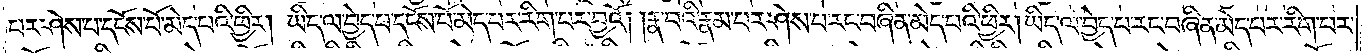པར་ཤེས་པ་དངོས་པོ་མེད་པའི་ཕྱིར། ཡིད་ལ་བྱེད་པ་དངོས་པོ་མེད་པར་རིག་པར་བྱའོ། །རྣ་བའི་རྣམ་པར་ཤེས་པ་རང་བཞིན་མེད་པའི་ཕྱིར། ཡིད་ལ་བྱེད་པ་རང་བཞིན་མེད་པར་རིག་པར་
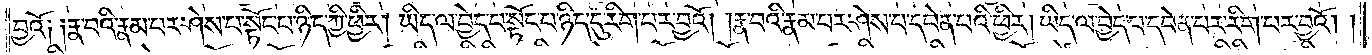བྱའོ༏ ༏རྣ་བའི་རྣམ་པར་ཤེས་པ་སྟོང་པ་ཉིད་ཀྱི་ཕྱིར། ཡིད་ལ་བྱེད་པ་སྟོང་པ་ཉིད་དུ་རིག་པར་བྱའོ། །རྣ་བའི་རྣམ་པར་ཤེས་པ་དབེན་པའི་ཕྱིར། ཡིད་ལ་བྱེད་པ་དབེན་པར་རིག་པར་བྱའོ། །
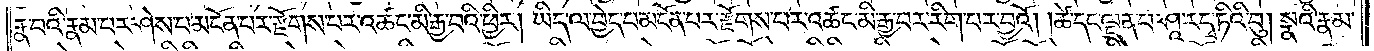རྣ་བའི་རྣམ་པར་ཤེས་པ་མངོན་པར་རྫོགས་པར་འཚང་མི་རྒྱ་བའི་ཕྱིར། ཡིད་ལ་བྱེད་པ་མངོན་པར་རྫོགས་པར་འཚང་མི་རྒྱ་བར་རིག་པར་བྱའོ། །ཚེ་དང་ལྡན་པ་ཤཱ་ར་དྭ་ཏིའི་བུ། སྣའི་རྣམ་
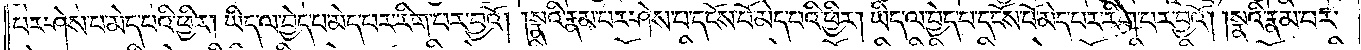པར་ཤེས་པ་མེད་པའི་ཕྱིར། ཡིད་ལ་བྱེད་པ་མེད་པར་རིག་པར་བྱའོ། །སྣའི་རྣམ་པར་ཤེས་པ་དངོས་པོ་མེད་པའི་ཕྱིར། ཡིད་ལ་བྱེད་པ་དངོས་པོ་མེད་པར་རིག་པར་བྱའོ། །སྣའི་རྣམ་པར་
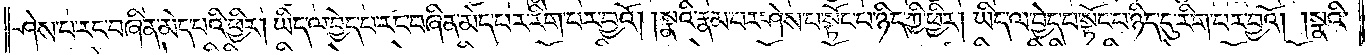ཤེས་པ་རང་བཞིན་མེད་པའི་ཕྱིར། ཡིད་ལ་བྱེད་པ་རང་བཞིན་མེད་པར་རིག་པར་བྱའོ། །སྣའི་རྣམ་པར་ཤེས་པ་སྟོང་པ་ཉིད་ཀྱི་ཕྱིར། ཡིད་ལ་བྱེད་པ་སྟོང་པ་ཉིད་དུ་རིག་པར་བྱའོ། །སྣའི་
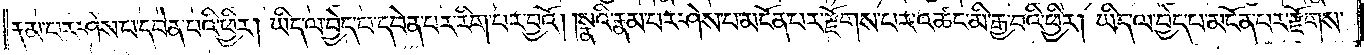རྣམ་པར་ཤེས་པ་དབེན་པའི་ཕྱིར། ཡིད་ལ་བྱེད་པ་དབེན་པར་རིག་པར་བྱའོ། །སྣའི་རྣམ་པར་ཤེས་པ་མངོན་པར་རྫོགས་པར་འཚང་མི་རྒྱ་བའི་ཕྱིར། ཡིད་ལ་བྱེད་པ་མངོན་པར་རྫོགས་
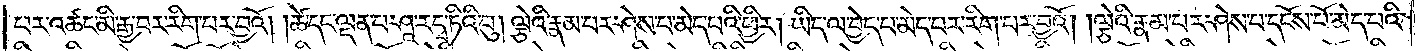པར་འཚང་མི་རྒྱ་བར་རིག་པར་བྱའོ། །ཚེ་དང་ལྡན་པ་ཤཱ་ར་དྭ་ཏིའི་བུ། ལྕེའི་རྣམ་པར་ཤེས་པ་མེད་པའི་ཕྱིར། ཡིད་ལ་བྱེད་པ་མེད་པར་རིག་པར་བྱའོ། །ལྕེའི་རྣམ་པར་ཤེས་པ་དངོས་པོ་མེད་པའི་
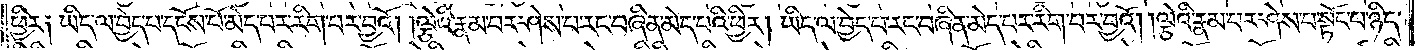ཕྱིར༏ ཡིད་ལ་བྱེད་པ་དངོས་པོ་མེད་པར་རིག་པར་བྱའོ། །ལྕེའི་རྣམ་པར་ཤེས་པ་རང་བཞིན་མེད་པའི་ཕྱིར། ཡིད་ལ་བྱེད་པ་རང་བཞིན་མེད་པར་རིག་པར་བྱའོ། །ལྕེའི་རྣམ་པར་ཤེས་པ་སྟོང་པ་ཉིད་
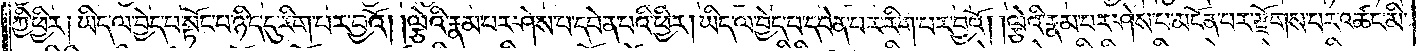ཀྱི་ཕྱིར། ཡིད་ལ་བྱེད་པ་སྟོང་པ་ཉིད་དུ་རིག་པར་བྱའོ། །ལྕེའི་རྣམ་པར་ཤེས་པ་དབེན་པའི་ཕྱིར། ཡིད་ལ་བྱེད་པ་དབེན་པར་རིག་པར་བྱའོ། །ལྕེའི་རྣམ་པར་ཤེས་པ་མངོན་པར་རྫོགས་པར་འཚང་མི་
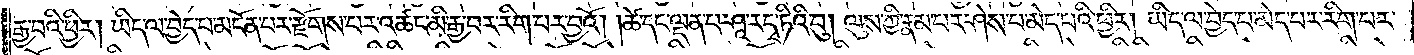རྒྱ་བའི་ཕྱིར། ཡིད་ལ་བྱེད་པ་མངོན་པར་རྫོགས་པར་འཚང་མི་རྒྱ་བར་རིག་པར་བྱའོ། །ཚེ་དང་ལྡན་པ་ཤཱ་ར་དྭ་ཏིའི་བུ། ལུས་ཀྱི་རྣམ་པར་ཤེས་པ་མེད་པའི་ཕྱིར། ཡིད་ལ་བྱེད་པ་མེད་པར་རིག་པར་
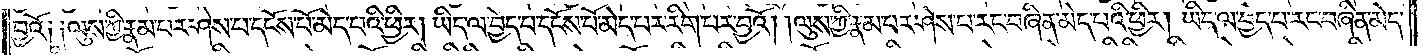བྱའོ༏ ༏ལུས་ཀྱི་རྣམ་པར་ཤེས་པ་དངོས་པོ་མེད་པའི་ཕྱིར། ཡིད་ལ་བྱེད་པ་དངོས་པོ་མེད་པར་རིག་པར་བྱའོ། །ལུས་ཀྱི་རྣམ་པར་ཤེས་པ་རང་བཞིན་མེད་པའི་ཕྱིར། ཡིད་ལ་བྱེད་པ་རང་བཞིན་མེད་
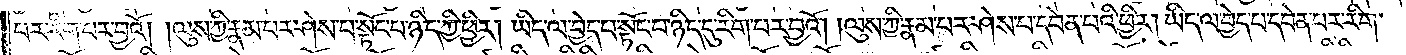པར་རིག་པར་བྱའོ། །ལུས་ཀྱི་རྣམ་པར་ཤེས་པ་སྟོང་པ་ཉིད་ཀྱི་ཕྱིར། ཡིད་ལ་བྱེད་པ་སྟོང་པ་ཉིད་དུ་རིག་པར་བྱའོ། །ལུས་ཀྱི་རྣམ་པར་ཤེས་པ་དབེན་པའི་ཕྱིར། ཡིད་ལ་བྱེད་པ་དབེན་པར་རིག་
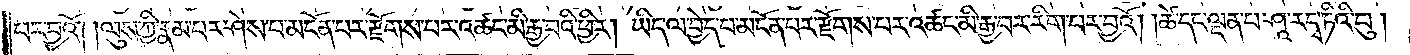པར་བྱའོ། །ལུས་ཀྱི་རྣམ་པར་ཤེས་པ་མངོན་པར་རྫོགས་པར་འཚང་མི་རྒྱ་བའི་ཕྱིར། ཡིད་ལ་བྱེད་པ་མངོན་པར་རྫོགས་པར་འཚང་མི་རྒྱ་བར་རིག་པར་བྱའོ། །ཚེ་དང་ལྡན་པ་ཤཱ་ར་དྭ་ཏིའི་བུ།
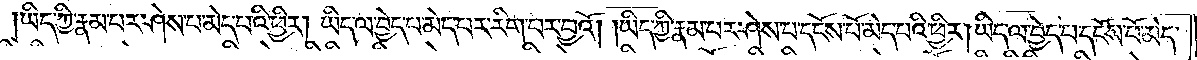ཡིད་ཀྱི་རྣམ་པར་ཤེས་པ་མེད་པའི་ཕྱིར། ཡིད་ལ་བྱེད་པ་མེད་པར་རིག་པར་བྱའོ། །ཡིད་ཀྱི་རྣམ་པར་ཤེས་པ་དངོས་པོ་མེད་པའི་ཕྱིར། ཡིད་ལ་བྱེད་པ་དངོས་པོ་མེད་
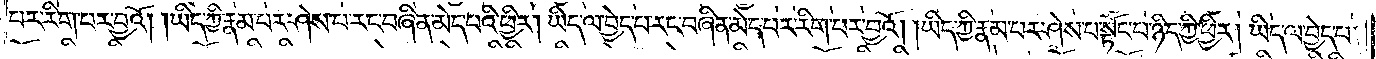པར་རིག་པར་བྱའོ། །ཡིད་ཀྱི་རྣམ་པར་ཤེས་པ་རང་བཞིན་མེད་པའི་ཕྱིར། ཡིད་ལ་བྱེད་པ་རང་བཞིན་མེད་པར་རིག་པར་བྱའོ། །ཡིད་ཀྱི་རྣམ་པར་ཤེས་པ་སྟོང་པ་ཉིད་ཀྱི་ཕྱིར། ཡིད་ལ་བྱེད་པ་
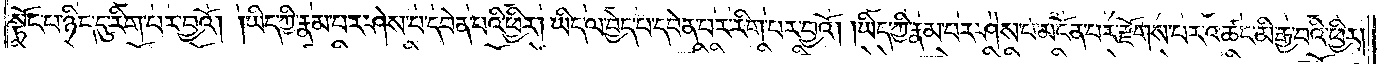སྟོང་པ་ཉིད་དུ་རིག་པར་བྱའོ། །ཡིད་ཀྱི་རྣམ་པར་ཤེས་པ་དབེན་པའི་ཕྱིར། ཡིད་ལ་བྱེད་པ་དབེན་པར་རིག་པར་བྱའོ། །ཡིད་ཀྱི་རྣམ་པར་ཤེས་པ་མངོན་པར་རྫོགས་པར་འཚང་མི་རྒྱ་བའི་ཕྱིར།
